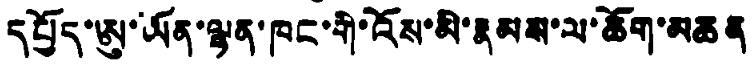དཔྱོད་ཨུ་ཡོན་ལྷན་ཁང་གི་འོས་མི་རྣམས་ལ་ཆོག་མཆན
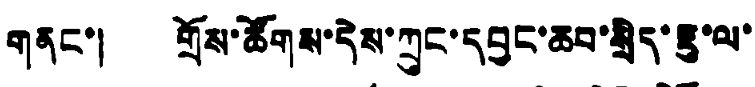གནང་། གྲོས་ཚོགས་དེས་ཀྲུང་དབྱང་ཆབ་སྲིད་ཇུ་ལ་
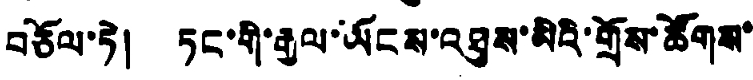བཅོལ་ཏེ། ཏང་གི་རྒྱལ་ཡོངས་འཐུས་མིའི་གྲོས་ཚོགས་
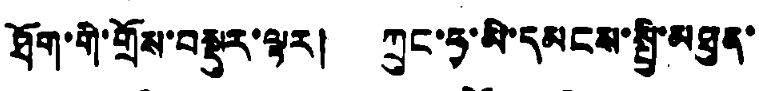ཐོག་གི་གྲོས་བསྡུར་ལྟར། ཀྲུང་ཧྭ་མི་དམངས་སྤྱི་མཐུན་
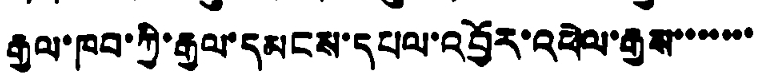རྒྱལ་ཁབ་ཀྱི་རྒྱལ་དམངས་དཔལ་འབྱོར་འཕེལ་རྒྱས་་་་་་་
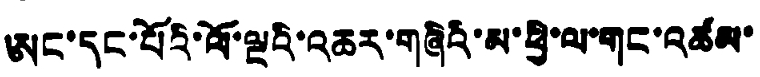ཨང་དང་པོའི་ལོ་ལྔའི་འཆར་གཞིའི་མ་ཕྱི་ལ་གང་འཚམ་
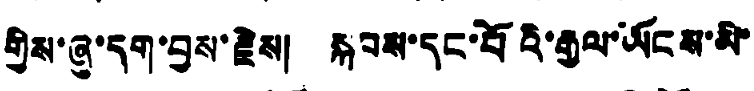གྱིས་ཞུ་དག་བྱས་རྗེས། སྐབས་དང་པོའི་རྒྱལ་ཡོངས་མི་
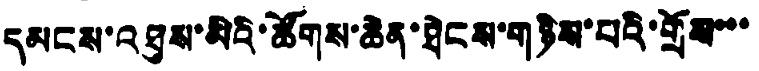དམངས་འཐུས་མིའི་ཚོགས་ཆེན་ཐེངས་གཉིས་པའི་གྲོས་་་
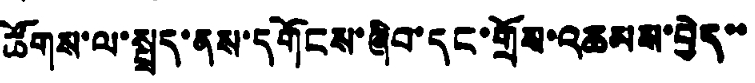ཚོགས་ལ་སྤྲད་ནས་དགོངས་ཞིབ་དང་གྲོས་འཆམས་བྱེད་་
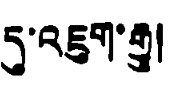དུ་འཇུག་རྒྱུ།
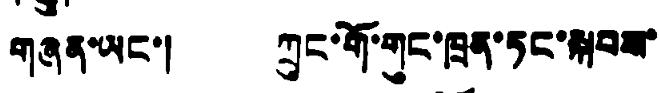གཞན་ཡང་། ཀྲུང་གོ་གུང་ཁྲན་ཏང་སྐབས་
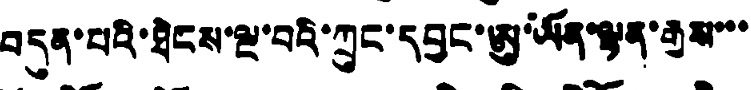བདུན་པའི་ཐེངས་ལྔ་བའི་ཀྲུང་དབྱང་ཨུ་ཡོན་ལྷན་རྒྱས་་་
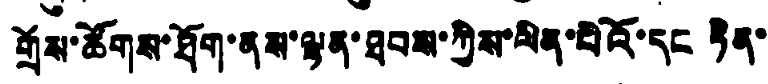གྲོས་ཚོགས་ཐོག་ནས་ལྷན་ཐབས་ཀྱིས་ལིན་པེའོ་དང ཏིན་
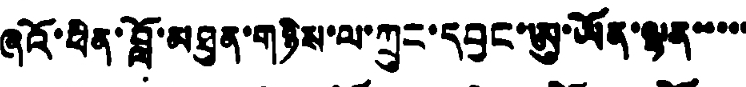ཞའོ་ཕིན་བློ་མཐུན་གཉིས་ལ་ཀྲུང་དབྱང་ཨུ་ཡོན་ལྷན་་་་་
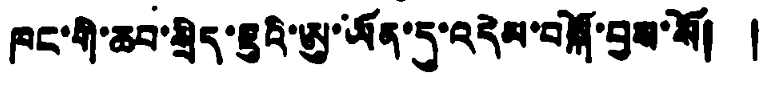ཁང་གི་ཆབ་སྲིད་ཇུའི་ཨུ་ཡོན་དུ་འདེམ་བསྐོ་བྱས་སོ། །
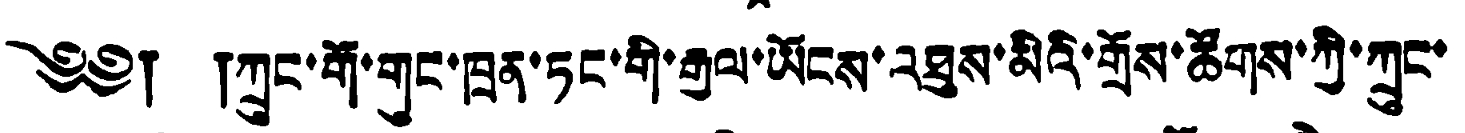༄༅། །ཀྲུང་གོ་གུང་ཁྲན་ཏང་གི་རྒྱལ་ཡོངས་འཐུས་མིའི་གྲོས་ཚོགས་ཀྱི་ཀྲུང་
